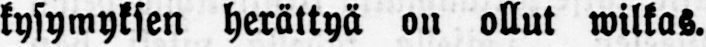kysymyksen herättyä on ollut wilkas.
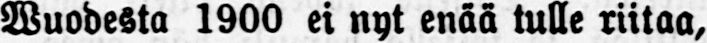Wuodesta 1900 ei nyt enää tulle riitaa,
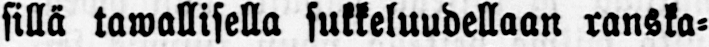sillä tawallisella sukkeluudellaan ranska-
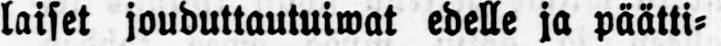laiset jouduttautuiwat edelle ja päätti-
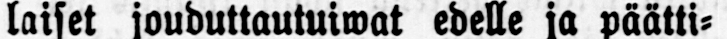wät silloin panna näyttelyn toimeen.
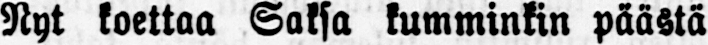Nyt koettaa Saksa kumminkin päästä
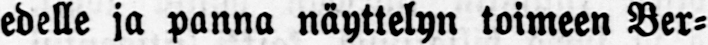edelle ja panna näyttelyn toimeen Ber-
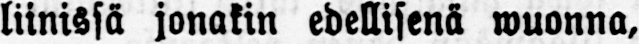liinissä jonakin edellisenä wuonna,-
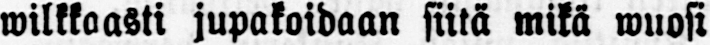wilkkaasti jupakoidaan siitä mikä wuosi
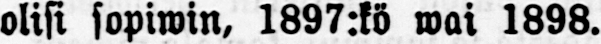olisi sopiwin, 1897:kö wai 1898.
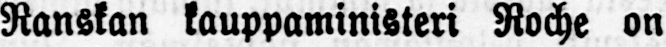Ranskan kauppaministeri Roche on
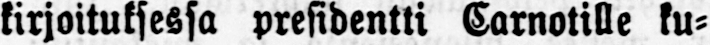kirjoituksessa presidentti Carnotille ku-
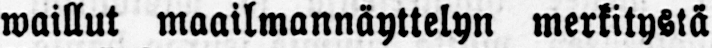waillut maailmannäyttelyn merkitystä
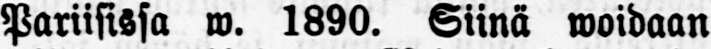Pariisissa w. 1890. Siinä woidaan
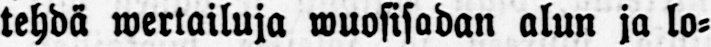tehdä wertailuja wuosisadan alun ja lo-
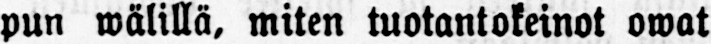pun wälillä, miten tuotantokeinot owat
